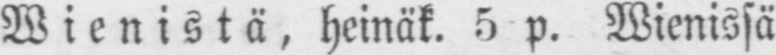Wienistä, heinäk. 5 p. Wienissä
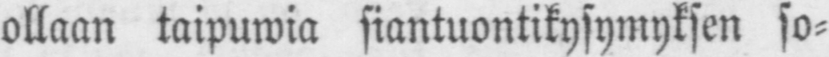ollaan taipuwia siantuontikysymyksen so-
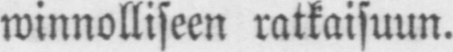winnolliseen ratkaisuun.
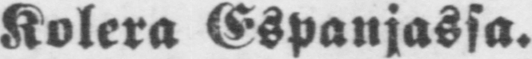Kolera Espanjassa.
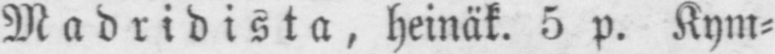Madridista, heinäk. 5 p. Kym-
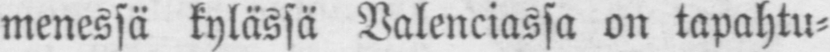menessä kylässä Valenciassa on tapahtu-
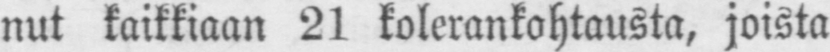nut kaikkiaan 21 kolerankohtausta, joista
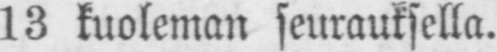13 kuoleman seurauksella.
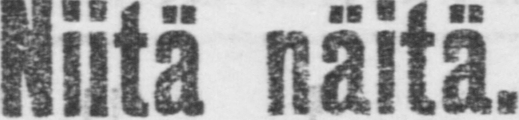Niitä näitä.
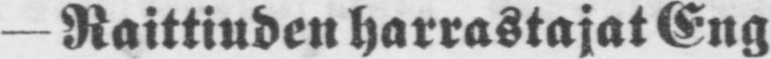— Raittiuden harrastajat Eng-
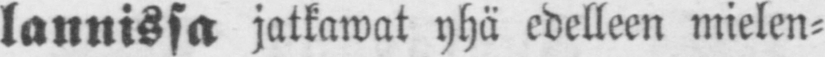lannissa jatkawat yhä edelleen mielen-
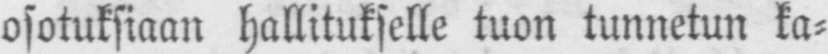osotuksiaan hallitukselle tuon tunnetun ka-
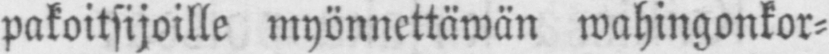pakoitsijoille myönnettäwän wahingonkor-
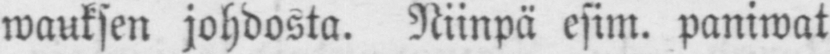wauksen johdosta. Niinpä esim. paniwat
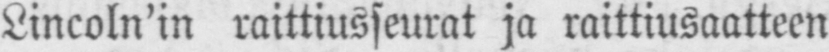Lincoln'in raittiusseurat ja raittiusaatteen
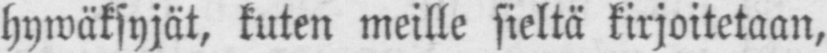hywäksyjät, kuten meille sieltä kirjoitetaan,
